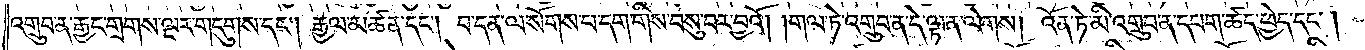འགྲུབ་ན་རྒྱང་གྲགས་ལྔར་གདུགས་དང༌། རྒྱལ་མཚན་དང༌། བ་དན་ལ་སོགས་པ་དག་གིས་བསུ་བར་བྱའོ། །གལ་ཏེ་འགྲུབ་ན་དེ་ལྟ་ན་ལེགས། འོན་ཏེ་མི་འགྲུབ་ན་དཔག་ཚད་ཕྱེད་དང༌།
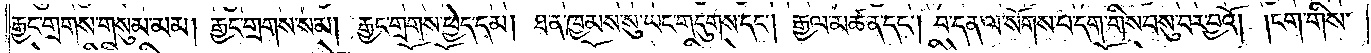རྒྱང་གྲགས་གསུམ་མམ། རྒྱང་གྲགས་སམ། རྒྱང་གྲགས་ཕྱེད་དམ། ཐ་ན་ཁྱམས་སུ་ཡང་གདུགས་དང༌། རྒྱལ་མཚན་དང༌། བ་དན་ལ་སོགས་པ་དག་གིས་བསུ་བར་བྱའོ། །ངག་གིས་
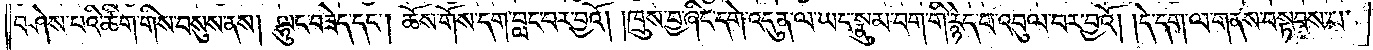བཤེས་པའི་ཚིག་གིས་བསུས་ནས། ལྷུང་བཟེད་དང༌། ཆོས་གོས་དག་བླང་བར་བྱའོ། །ཁྲུས་བྱ་ཞིང་དགེ་འདུན་ལ་ཡང་སྣུམ་བག་གི་རྙེད་པ་འབུལ་བར་བྱའོ། །དེ་དག་ལ་གནས་བསྟབས་པ་
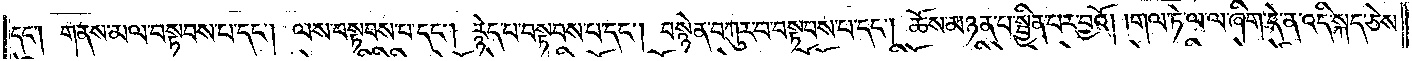དང༌། གནས་མལ་བསྟབས་པ་དང༌། ལས་བསྟབས་པ་དང༌། རྙེད་པ་བསྟབས་པ་དང༌། བསྙེན་བཀུར་བ་བསྟབས་པ་དང༌། ཆོས་མཉན་པ་སྦྱིན་པར་བྱའོ། །གལ་ཏེ་ལ་ལ་ཞིག་དེ་ན་འདི་སྐད་ཅེས་
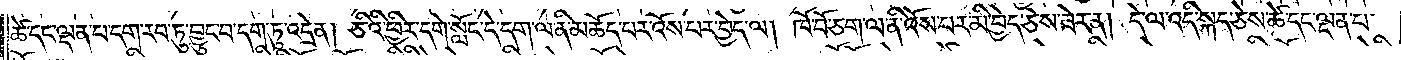ཚེ་དང་ལྡན་པ་དག་རབ་ཏུ་བྱུང་བ་དག་ཏུ་འདྲེན། ཅིའི་ཕྱིར་དགེ་སློང་དེ་དག་ལ་ནི་མཆོད་པར་འོས་པར་བྱེད་ལ། ཁོ་བོ་ཅག་ལ་ནི་འོས་པར་མི་བྱེད་ཅེས་ཟེར་ན། དེ་ལ་འདི་སྐད་ཅེས་ཚེ་དང་ལྡན་པ་
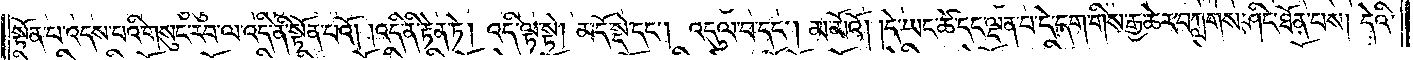སྟོན་པ་འདས་པའི་གསུང་རབ་ལ་འདི་ནི་སྟོན་པའོ། །འདི་ནི་རྟེན་ཏེ། འདི་ལྟ་སྟེ། མདོ་སྡེ་དང༌། འདུལ་བ་དང༌། མ་མོའོ། །དེ་ཡང་ཚེ་དང་ལྡན་པ་དེ་དག་གིས་རྒྱ་ཆེར་བཀླགས་ཤིང་ཐོན་པས། དེའི་
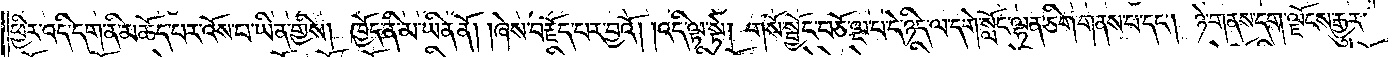ཕྱིར་འདི་དག་ནི་མཆོད་པར་འོས་པ་ཡིན་གྱིས། ཁྱོད་ནི་མ་ཡིན་ནོ། །ཞེས་བརྗོད་པར་བྱའོ། །འདི་ལྟ་སྟེ། གསོ་སྦྱོང་བཅོ་ལྔ་པ་དེ་ཉིད་ལ་དགེ་སློང་ལྷན་ཅིག་གནས་པ་དང༌། ཉེ་གནས་དག་ལྗོངས་རྒྱུར་
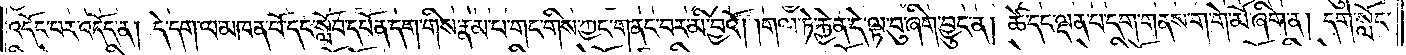འདོང་པར་འདོད་ན། དེ་དག་ལ་མཁན་པོ་དང་སློབ་དཔོན་དག་གིས་རྣམ་པ་གང་གིས་ཀྱང་གནང་བར་མི་བྱའོ། །གལ་ཏེ་རྐྱེན་དེ་ལྟ་བུ་ཞིག་བྱུང་ན། ཚེ་དང་ལྡན་པ་དག་གནས་ག་གེ་མོ་ཞིག་ན། དགེ་སློང་
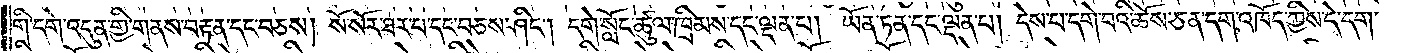གི་དགེ་འདུན་གྱི་གནས་བརྟན་དང་བཅས། སོ་སོར་ཐར་པ་དང་བཅས་ཤིང༌། དགེ་སློང་ཚུལ་ཁྲིམས་དང་ལྡན་པ། ཡོན་ཏན་དང་ལྡན་པ། དེས་པ་དགེ་བའི་ཆོས་ཅན་དག་འཁོད་ཀྱིས་དེ་དག་
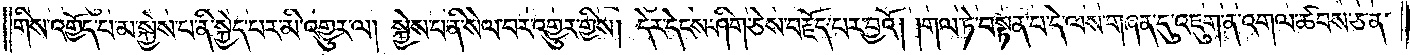གིས་འགྱོད་པ་མ་སྐྱེས་པ་ནི་སྐྱེད་པར་མི་འགྱུར་ལ། སྐྱེས་པ་ནི་སེལ་བར་འགྱུར་གྱིས། དེར་དེངས་ཤིག་ཅེས་བརྗོད་པར་བྱའོ། །གལ་ཏེ་བསྟན་པ་དེ་ལས་གཞན་དུ་འཇུག་ན་འགལ་ཚབས་ཅན་
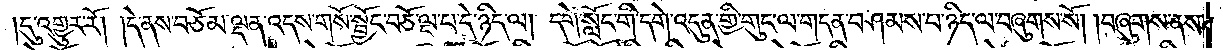དུ་འགྱུར་རོ། །དེ་ནས་བཅོམ་ལྡན་འདས་གསོ་སྦྱོང་བཅོ་ལྔ་པ་དེ་ཉིད་ལ། དགེ་སློང་གི་དགེ་འདུན་གྱི་གུང་ལ་གདན་བཤམས་པ་ཉིད་ལ་བཞུགས་སོ། །བཞུགས་ནས་
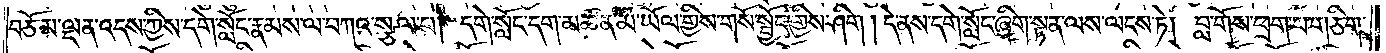བཅོམ་ལྡན་འདས་ཀྱིས་དགེ་སློང་རྣམས་ལ་བཀའ་སྩལ་པ། དགེ་སློང་དག་མཚན་མོ་ཡོལ་གྱིས་གསོ་སྦྱོང་གྱིས་ཤིག །དེ་ནས་དགེ་སློང་ཞིག་སྟན་ལས་ལངས་ཏེ། བླ་གོས་ཕྲག་པ་གཅིག་
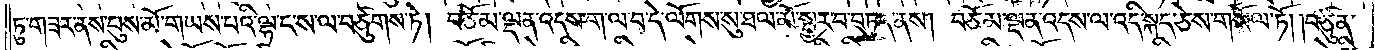ཏུ་གཟར་ནས་པུས་མོ་གཡས་པའི་ལྷ་ང་ས་ལ་བཙུགས་ཏེ། བཅོམ་ལྡན་འདས་ག་ལ་བ་དེ་ལོགས་སུ་ཐལ་མོ་སྦྱར་བ་བཏུད་ནས། བཅོམ་ལྡན་འདས་ལ་འདི་སྐད་ཅེས་གསོལ་ཏོ། །བཙུན་
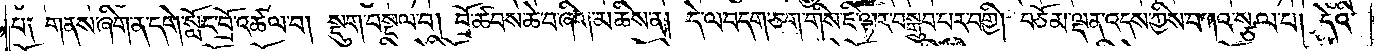པ༏ གནས་ཞིག་ན་དགེ་སློང་བྲོ་འཚལ་བ། སྡུག་བསྔལ་བ། བྲོ་ཚབས་ཆེ་བ་ཞིག་མཆིས་ན། དེ་ལ་བདག་ཅག་གིས་ཇི་ལྟར་བསྒྲུབ་པར་བགྱི། བཅོམ་ལྡན་འདས་ཀྱིས་བཀའ་སྩལ་པ། དེའི་
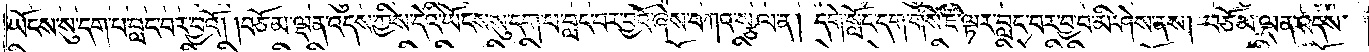ཡོངས་སུ་དག་པ་བླང་བར་བྱའོ། །བཅོམ་ལྡན་འདས་ཀྱིས་དེའི་ཡོངས་སུ་དག་པ་བླང་བར་བྱའོ་ཞེས་བཀའ་སྩལ་ན། དགེ་སློང་དག་གིས་ཇི་ལྟར་བླང་བར་བྱ་བ་མི་ཤེས་ནས། བཅོམ་ལྡན་འདས་
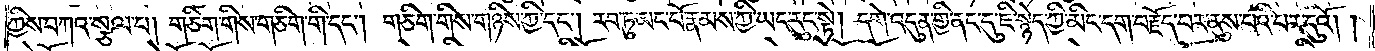ཀྱིས་བཀའ་སྩལ་པ། གཅིག་གིས་གཅིག་གི་དང༌། གཅིག་གིས་གཉིས་ཀྱི་དང༌། རབ་ཏུ་མང་པོ་རྣམས་ཀྱི་ཡང་རུང་སྟེ། དགེ་འདུན་གྱི་ནང་དུ་ཇི་སྙེད་ཀྱི་མིང་དག་བརྗོད་པར་ནུས་པའི་བར་དུའོ། །
